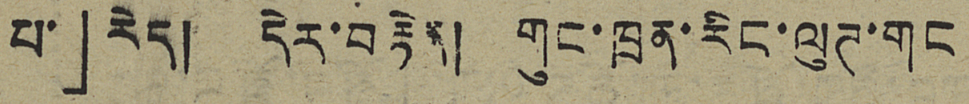པ་」རེད། དེར་བརྟེན། གུང་ཁྲན་རིང་ལུཊ་གང
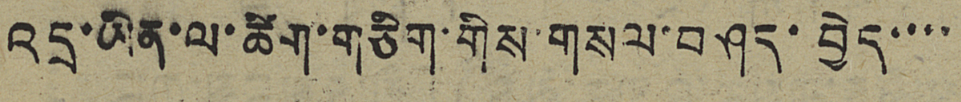འདྲ་ཡིན་ལ་ཚིག་གཅིག་གིས་གསལ་བཤད་བྱེད་་་་
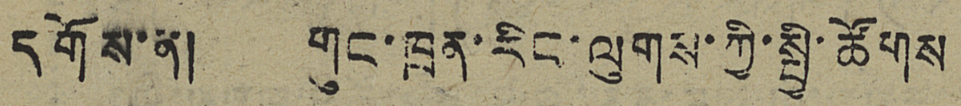དགོས་ན། གུང་ཁྲན་རིང་ལུགས་ཀྱི་སྤྱི་ཚོགས
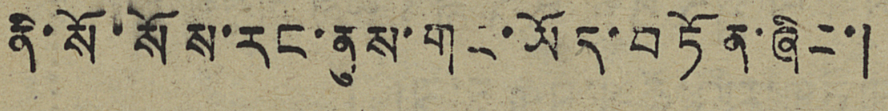ནི་སོ་སོས་རང་ནུས་གང་ཡོད་བཏོན་ཞིང་།
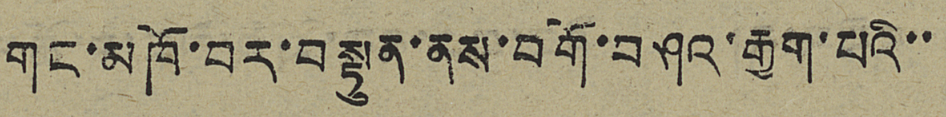གང་མཁོ་བར་བསྟུན་ནས་བགོ་བཤའ་རྒྱག་པའི་་
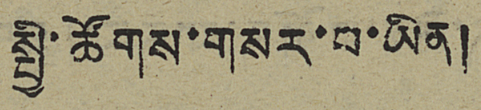སྤྱི་ཚོགས་གསར་བ་ཡིན།
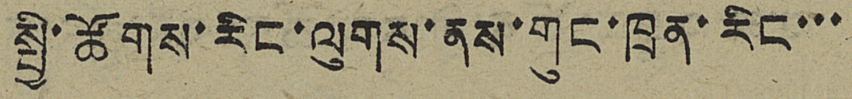སྤྱི་ཚོགས་རིང་ལུགས་ནས་གུང་ཁྲན་རིང་་་
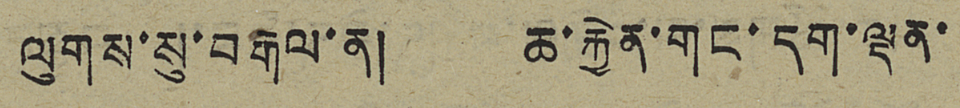ལུགས་སུ་བརྒལ་ན། ཆ་རྐྱེན་གང་དག་ལྡན་
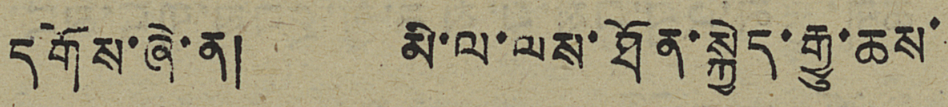དགོས་ཞེ་ན། མི་ལ་ལས་ཐོན་སྐྱེད་རྒྱུ་ཆས་
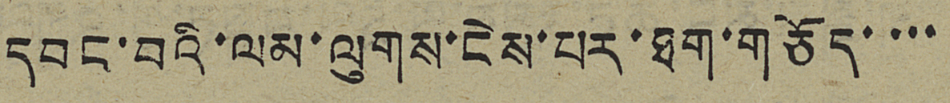དབང་བའི་ལམ་ལུགས་ངེས་པར་ཐག་གཅོད་་་་
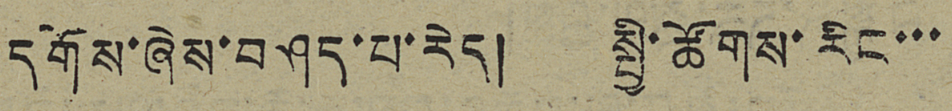དགོས་ཞེས་བཤད་པ་རེད། སྤྱི་ཚོགས་རིང་་་
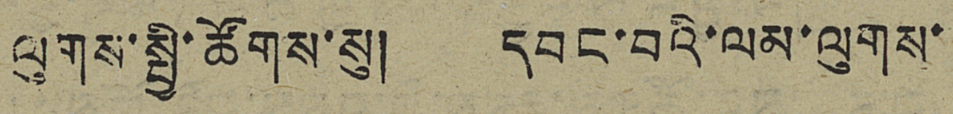ལུགས་སྤྱི་ཚོགས་སུ། དབང་བའི་ལམ་ལུགས་
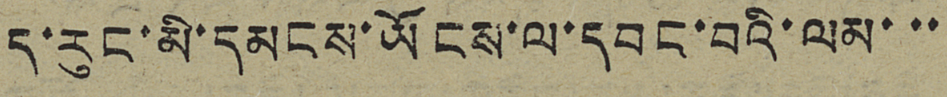ད་རུང་མི་དམངས་ཡོངས་ལ་དབང་བའི་ལམ་་་
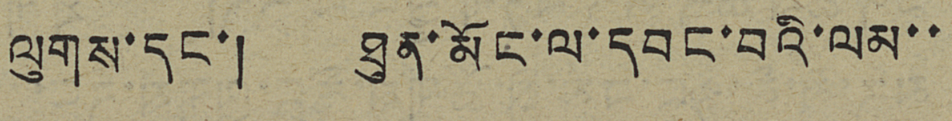ལུགས་དང་། ཐུན་མོང་ལ་དབང་བའི་ལམ་་
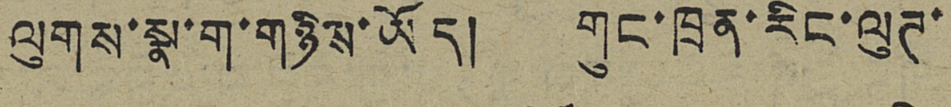ལུགས་སྣ་ག་གཉིས་ཡོད། གུང་ཁྲན་རིང་ལུཊ་
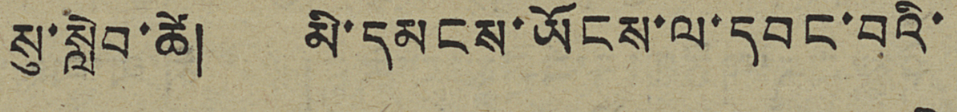སུ་སླེབ་ཚེ། མི་དམངས་ཡོངས་ལ་དབང་བའི་
